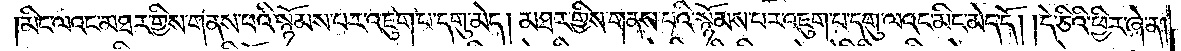མིང་ལའང་མཐར་གྱིས་གནས་པའི་སྙོམས་པར་འཇུག་པ་དགུ་མེད། མཐར་གྱིས་གནས་པའི་སྙོམས་པར་འཇུག་པ་དགུ་ལའང་མིང་མེད་དོ། །དེ་ཅིའི་ཕྱིར་ཞེ་ན།
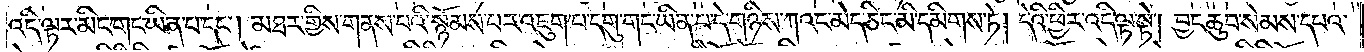འདི་ལྟར་མིང་གང་ཡིན་པ་དང༌། མཐར་གྱིས་གནས་པའི་སྙོམས་པར་འཇུག་པ་དགུ་གང་ཡིན་པ་དེ་གཉིས་ཀའང་མེད་ཅིང་མི་དམིགས་ཏེ། དེའི་ཕྱིར་འདི་ལྟ་སྟེ། བྱང་ཆུབ་སེམས་དཔའ་
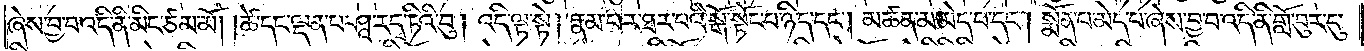ཞེས་བྱ་བ་འདི་ནི་མིང་ཙམ་མོ། །ཚེ་དང་ལྡན་པ་ཤཱ་ར་དྭ་ཏིའི་བུ། འདི་ལྟ་སྟེ། རྣམ་པར་ཐར་པའི་སྒོ་སྟོང་པ་ཉིད་དང༌། མཚན་མ་མེད་པ་དང༌། སྨོན་པ་མེད་པ་ཞེས་བྱ་བ་འདི་ནི་གློ་བུར་དུ་
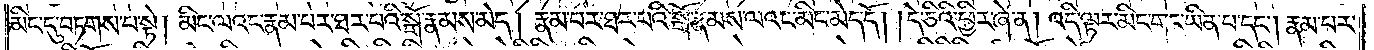མིང་དུ་བཏགས་པ་སྟེ། མིང་ལའང་རྣམ་པར་ཐར་པའི་སྒོ་རྣམས་མེད། རྣམ་པར་ཐར་པའི་སྒོ་རྣམས་ལའང་མིང་མེད་དོ། །དེ་ཅིའི་ཕྱིར་ཞེ་ན། འདི་ལྟར་མིང་གང་ཡིན་པ་དང༌། རྣམ་པར་
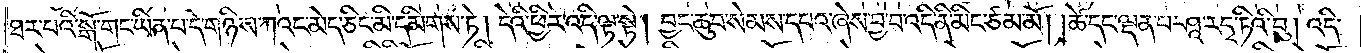ཐར་པའི་སྒོ་གང་ཡིན་པ་དེ་གཉིས་ཀའང་མེད་ཅིང་མི་དམིགས་ཏེ། དེའི་ཕྱིར་འདི་ལྟ་སྟེ། བྱང་ཆུབ་སེམས་དཔའ་ཞེས་བྱ་བ་འདི་ནི་མིང་ཙམ་མོ། །ཚེ་དང་ལྡན་པ་ཤཱ་ར་དྭ་ཏིའི་བུ། འདི་
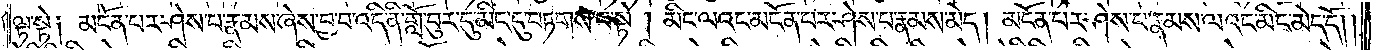ལྟ་སྟེ། མངོན་པར་ཤེས་པ་རྣམས་ཞེས་བྱ་བ་འདི་ནི་གློ་བུར་དུ་མིང་དུ་བཏགས་པ་སྟེ། མིང་ལའང་མངོན་པར་ཤེས་པ་རྣམས་མེད། མངོན་པར་ཤེས་པ་རྣམས་ལའང་མིང་མེད་དོ། །
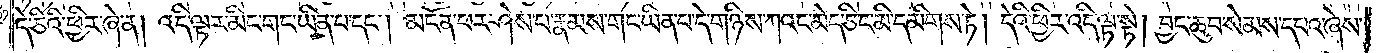དེ་ཅིའི་ཕྱིར་ཞེ་ན། འདི་ལྟར་མིང་གང་ཡིན་པ་དང༌། མངོན་པར་ཤེས་པ་རྣམས་གང་ཡིན་པ་དེ་གཉིས་ཀའང་མེད་ཅིང་མི་དམིགས་ཏེ། དེའི་ཕྱིར་འདི་ལྟ་སྟེ། བྱང་ཆུབ་སེམས་དཔའ་ཞེས་
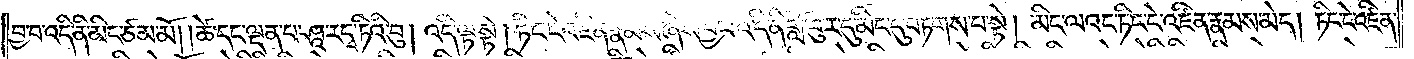བྱ་བ་འདི་ནི་མིང་ཙམ་མོ། །ཚེ་དང་ལྡན་པ་ཤཱ་ར་དྭ་ཏིའི་བུ། འདི་ལྟ་སྟེ། ཏིང་ངེ་འཛིན་རྣམས་ཞེས་བྱ་བ་འདི་ནི་གློ་བུར་དུ་མིང་དུ་བཏགས་པ་སྟེ། མིང་ལའང་ཏིང་ངེ་འཛིན་རྣམས་མེད། ཏིང་ངེ་འཛིན་
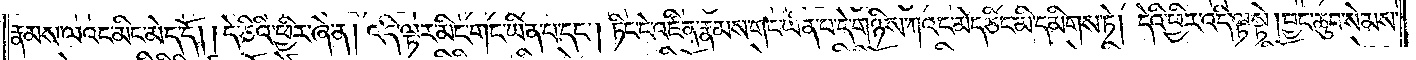རྣམས་ལའང་མིང་མེད་དོ། །དེ་ཅིའི་ཕྱིར་ཞེ་ན། འདི་ལྟར་མིང་གང་ཡིན་པ་དང༌། ཏིང་ངེ་འཛིན་རྣམས་གང་ཡིན་པ་དེ་གཉིས་ཀའང་མེད་ཅིང་མི་དམིགས་ཏེ། དེའི་ཕྱིར་འདི་ལྟ་སྟེ། བྱང་ཆུབ་སེམས་
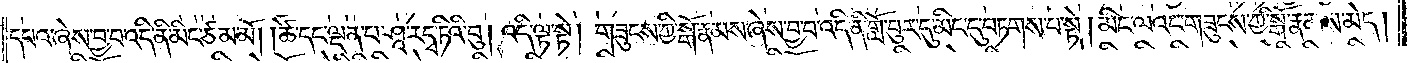དཔའ་ཞེས་བྱ་བ་འདི་ནི་མིང་ཙམ་མོ། །ཚེ་དང་ལྡན་པ་ཤཱ་ར་དྭ་ཏིའི་བུ། འདི་ལྟ་སྟེ། གཟུངས་ཀྱི་སྒོ་རྣམས་ཞེས་བྱ་བ་འདི་ནི་གློ་བུར་དུ་མིང་དུ་བཏགས་པ་སྟེ། མིང་ལའང་གཟུངས་ཀྱི་སྒོ་རྣམས་མེད།
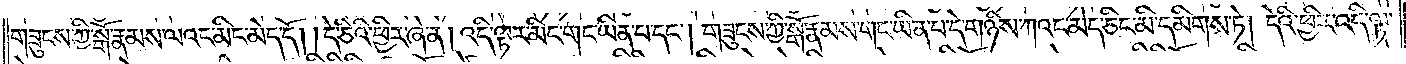གཟུངས་ཀྱི་སྒོ་རྣམས་ལའང་མིང་མེད་དོ། །དེ་ཅིའི་ཕྱིར་ཞེ་ན། འདི་ལྟར་མིང་གང་ཡིན་པ་དང༌། གཟུངས་ཀྱི་སྒོ་རྣམས་གང་ཡིན་པ་དེ་གཉིས་ཀའང་མེད་ཅིང་མི་དམིགས་ཏེ། དེའི་ཕྱིར་འདི་ལྟ་
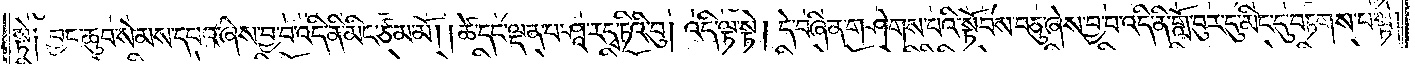སྟེ། བྱང་ཆུབ་སེམས་དཔའ་ཞེས་བྱ་བ་འདི་ནི་མིང་ཙམ་མོ། །ཚེ་དང་ལྡན་པ་ཤཱ་ར་དྭ་ཏིའི་བུ། འདི་ལྟ་སྟེ། དེ་བཞིན་གཤེགས་པའི་སྟོབས་བཅུ་ཞེས་བྱ་བ་འདི་ནི་གློ་བུར་དུ་མིང་དུ་བཏགས་པ་སྟེ།
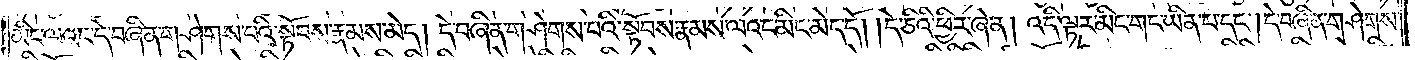མིང་ལའང་དེ་བཞིན་གཤེགས་པའི་སྟོབས་རྣམས་མེད། དེ་བཞིན་གཤེགས་པའི་སྟོབས་རྣམས་ལའང་མིང་མེད་དོ། །དེ་ཅིའི་ཕྱིར་ཞེ་ན། འདི་ལྟར་མིང་གང་ཡིན་པ་དང༌། དེ་བཞིན་གཤེགས་
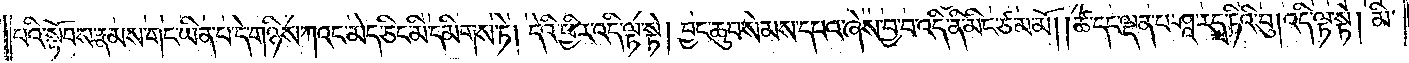པའི་སྟོབས་རྣམས་གང་ཡིན་པ་དེ་གཉིས་ཀའང་མེད་ཅིང་མི་དམིགས་ཏེ། དེའི་ཕྱིར་འདི་ལྟ་སྟེ། བྱང་ཆུབ་སེམས་དཔའ་ཞེས་བྱ་བ་འདི་ནི་མིང་ཙམ་མོ། །ཚེ་དང་ལྡན་པ་ཤཱ་ར་དྭ་ཏིའི་བུ། འདི་ལྟ་སྟེ། མི་
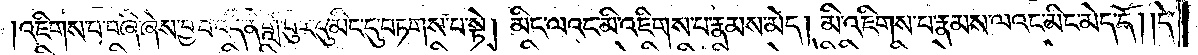འཇིགས་པ་བཞི་ཞེས་བྱ་བ་འདི་ནི་གློ་བུར་དུ་མིང་དུ་བཏགས་པ་སྟེ། མིང་ལའང་མི་འཇིགས་པ་རྣམས་མེད། མི་འཇིགས་པ་རྣམས་ལའང་མིང་མེད་དོ། །དེ་
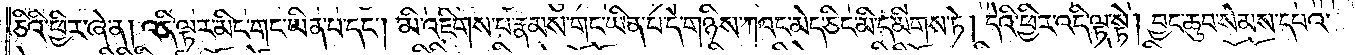ཅིའི་ཕྱིར་ཞེ་ན། འདི་ལྟར་མིང་གང་ཡིན་པ་དང༌། མི་འཇིགས་པ་རྣམས་གང་ཡིན་པ་དེ་གཉིས་ཀའང་མེད་ཅིང་མི་དམིགས་ཏེ། དེའི་ཕྱིར་འདི་ལྟ་སྟེ། བྱང་ཆུབ་སེམས་དཔའ་
